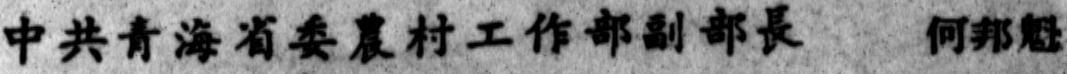中共青海省委農村工作部副部長 何邦魁
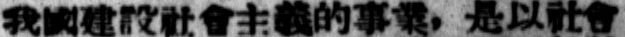我國建設社會主義的事業，是以社會
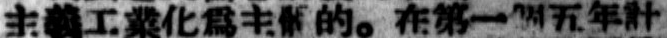主義工業化爲主題的。在第一個五年計
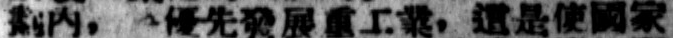劃內。要優先發展重工業，這是使國家
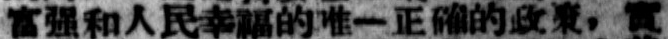富强和人民幸福的唯一正確的政策。實
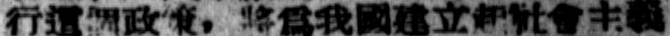行這個政策，將爲我國建立起社會主義
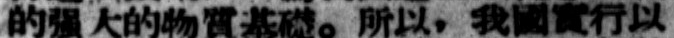的强大的物質基礎。所以，我國實行以
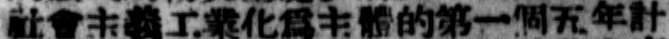社會主義工業化爲主體的第一個五年計
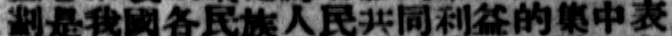劃是我國各民族人民共同利益的集中表
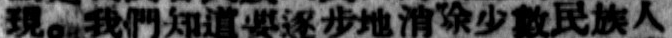現。我們知道要逐步地消除少數民族人
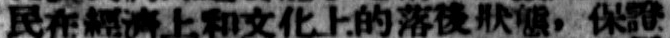民在經濟上和文化上的落後狀態，保證
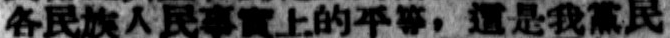各民族人民事實上的平等，這是我黨民
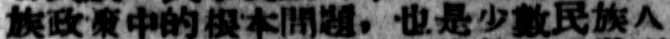族政策中的根本問題，也是少數民族人
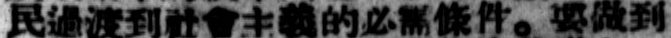民過渡到社會主義的必需條件。要做到
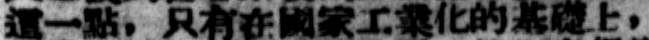這一點，只有在國家工業化的基礎上，
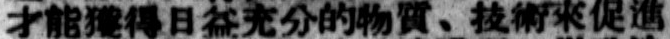才能獲得日益充分的物質、技術來促進
